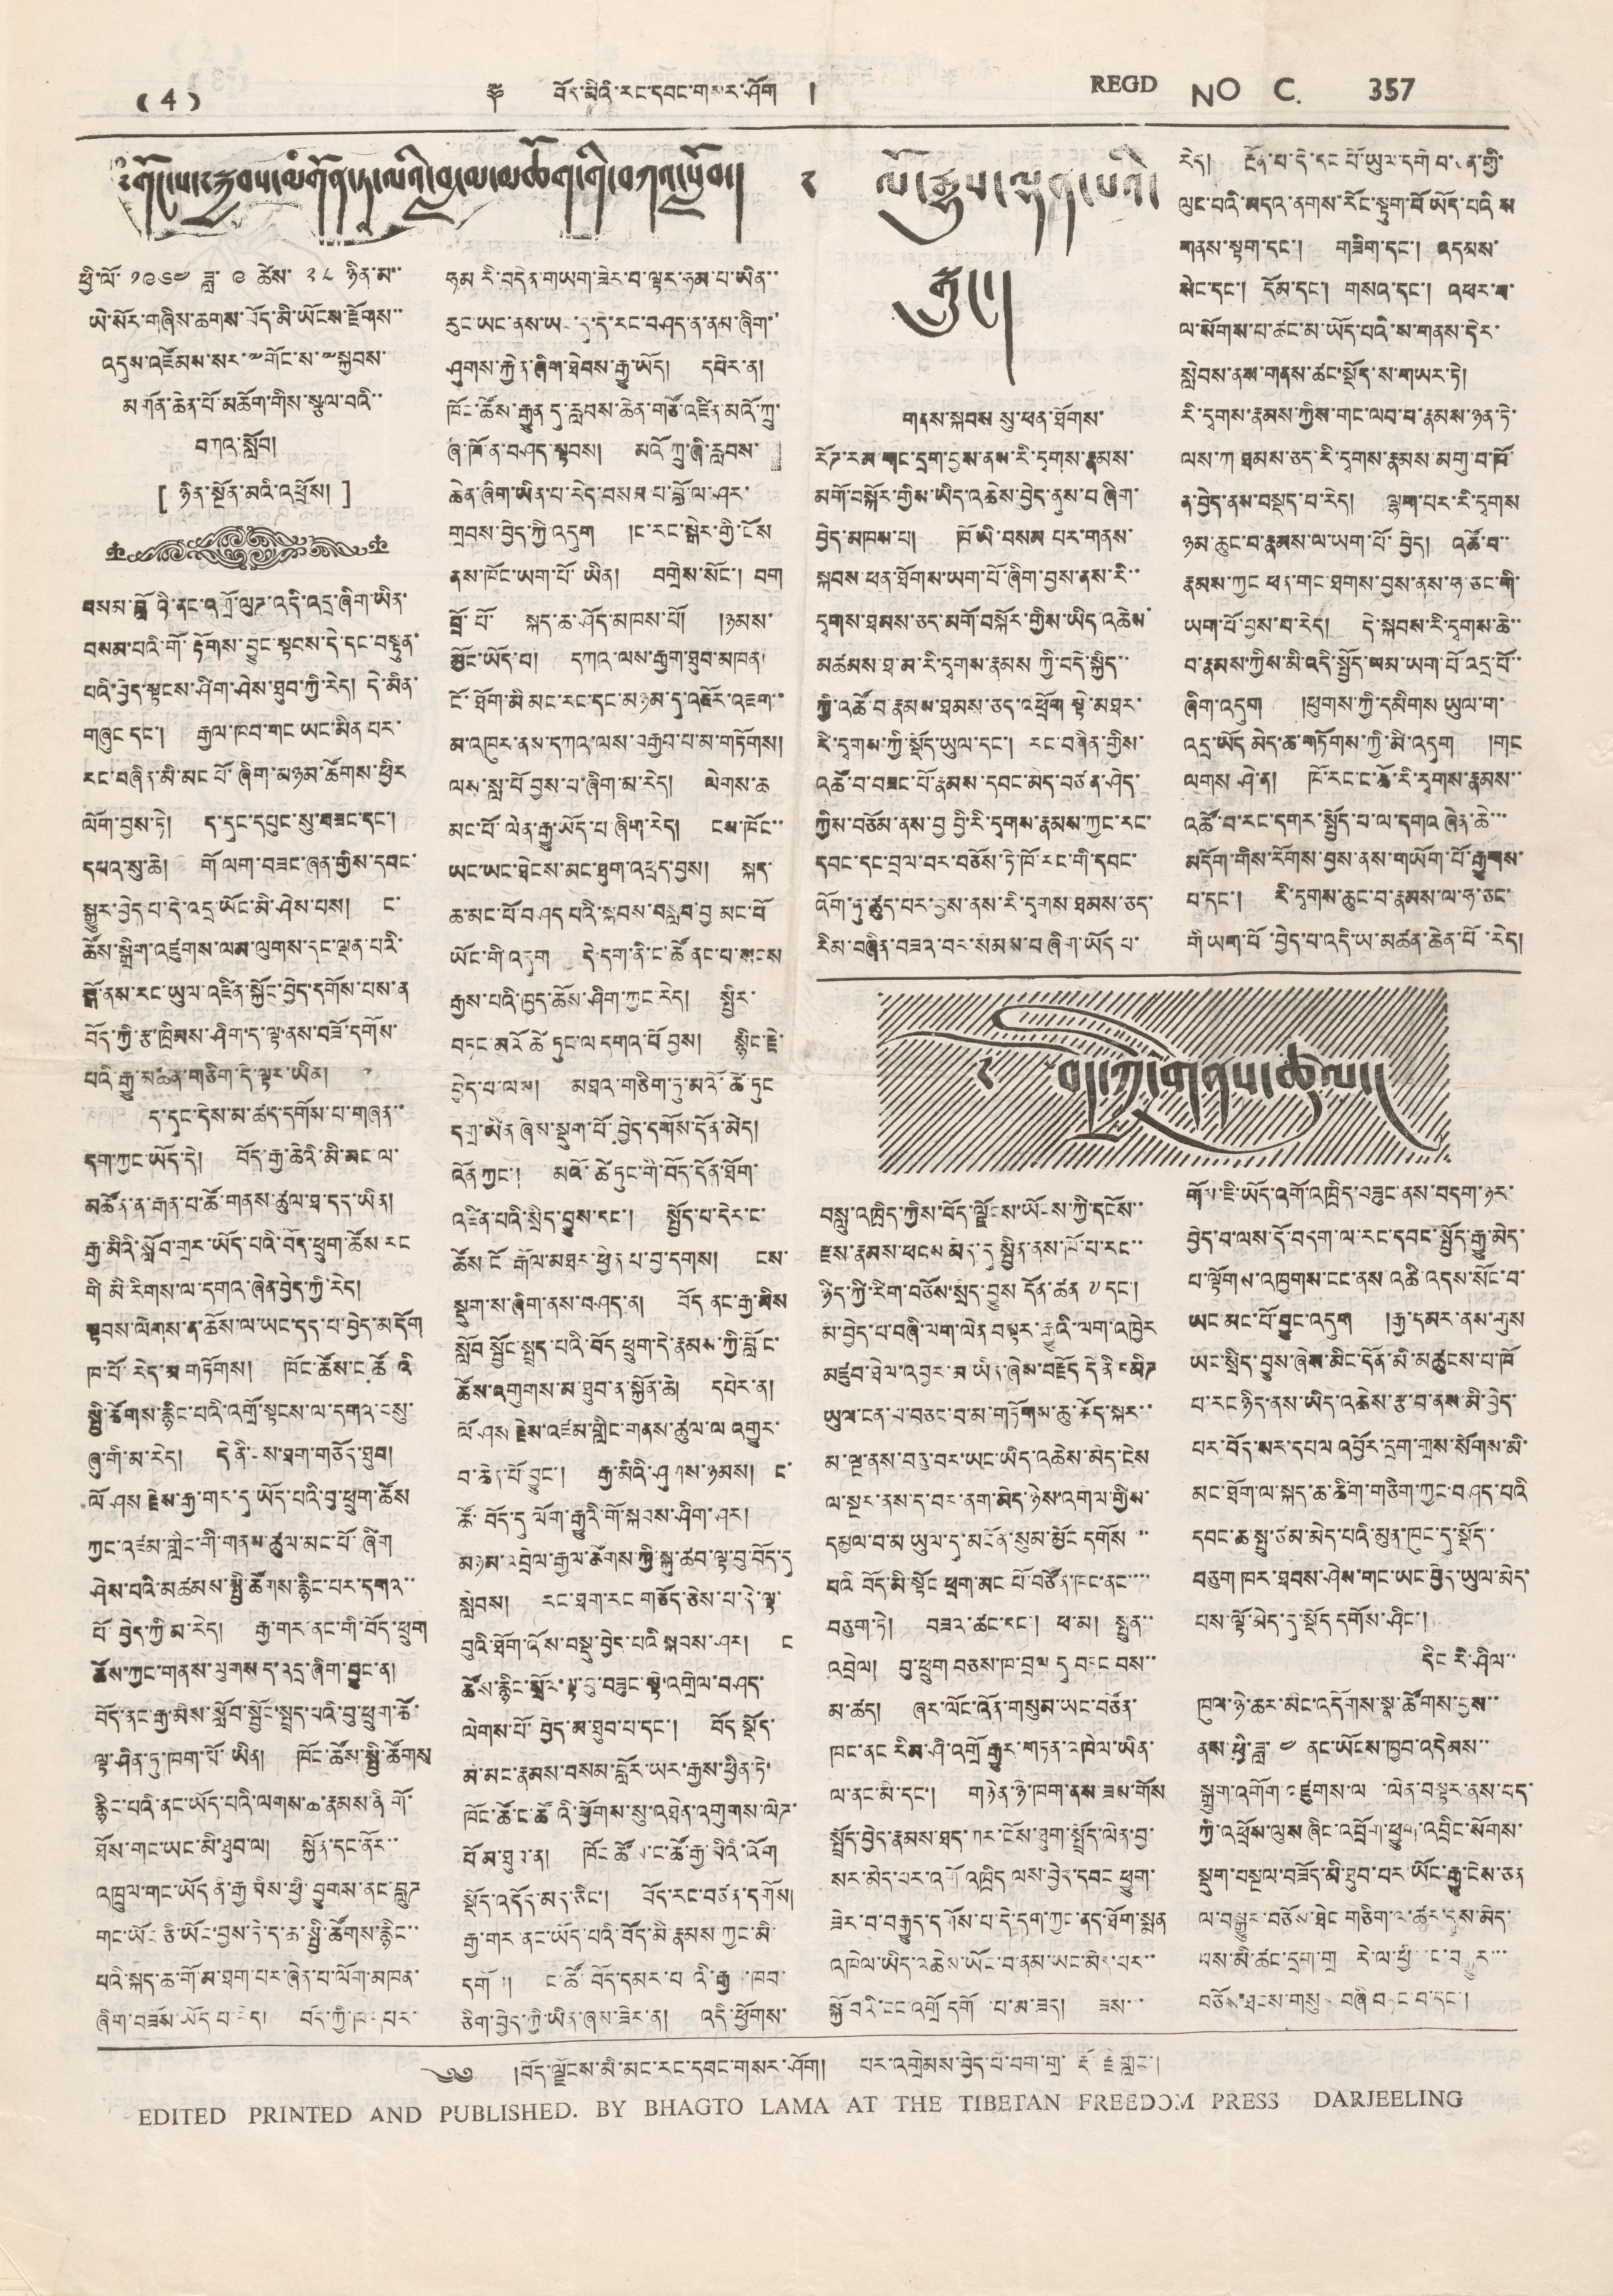(( 4 )) ༈ བོད་མི་རང་དབང་གསར་ཤོག །REGD NO C. 357
༸གོང་ས་༸སྐྱབས་མགོན་ཏཱ་ལའི་བླ་མ་མཆོག་གི་བཀའ་སློབ།
ཕྱི་ལོ་ ༡༩༦༤ ཟླ་ ༩ ཚེས་ ༢༨ ཉིན་མ་་
ཡེ་སོར་གཞིས་ཆགས་བོད་མི་ཡོངས་རྫོགས་་
འདུས་འཛོམས་སར་༸གོང་ས་༸སྐྱབས་་
མགོན་ཆེན་པོ་མཆོག་གིས་སྩལ་བའི་་
བཀའ་སློབ།
༄ ལོ་རྒྱུས་ལྡན་པའི་
སྒྲུང་།
[ ཉིན་སྔོན་མའི་འཕྲོས། ]
བསམ་བློའི་ནང་འགྲོ་ལུཌ་འདི་འདྲ་ཞིག་ཡིན་
བསམ་པའི་གོ་རྟོགས་བྱུང་སྟབས་དེ་དང་བསྟུན་
པའི་བྱེད་སྟངས་ཤིག་ཤེས་ཐུབ་ཀྱི་རེད། དེ་མིན་
གཞུང་དང་། རྒྱལ་ཁབ་གང་ཡང་མིན་པར་
རང་བཞིན་མི་མང་ཞིག་མཉམ་ཚོགས་ཕྱིར
ལོག་བྱས་ཏེ། ད་དུང་དཔུང་སུ་བཟང་དང་།
དཔའ་སུ་ཆེ། གོ ལག་བཟང་ཞན་གྱིས་དབང་
སྒྱུར་བྱེད་པ་དེ་འདྲ་ཡོང་མི་ཤེས་པས། ང་
ཆོས་སྒྲིག་འཛུགས་ལས་ལུགས་དང་ལྡན་པའི་
སྒོ་ནས་རང་ཡུལ་འཛིན་སྐྱོང་བྱེད་དགོས་པས་ན
བོད་ཀྱི་རྩ་ཁྲིམས་ཤིག་ད་ལྟ་ནས་བཟོ་དགོས་
པའི་རྒྱུ་མཚན་གཅིག་དེ་ལྟར་ཡིན།
ད་དུང་དེས་མ་ཚད་དགོས་པ་གཞན་་
དག་ཀྱང་ཡོད་དེ། བོད་རྒྱ་ཆེའི་མི་མང་ལ་
མཚོན་ན་རྒན་པ་ཆོ་གནས་ཚུལ་ཐ་དད་ཡིན།
རྒྱ་མིའི་སློབ་གྲར་ཡོད་པའི་བོད་ཕྲུག་ཚོས་རང
གི་མི་རིགས་ལ་དགའ་ཞེན་བྱེད་ཀྱི་རེད།
སྟབས་ལེགས་ན་ཆོས་ལ་ཡང་དད་པ་བྱེད་མདོག
ཁ་པོ་རེད་མ་གཏོགས། ཁོང་ཚོས་ང ཚོའི
སྤྱི་ཚོགས་རྙིང་པའི་འགྲོ་སྟངས་ལ་དགའ་བསུ་
ཞུ་གི་མ་རེད། དེ ནི་ངས་ཐག་གཅོད་ཐུབ།
ལོ ཤས རྗེས་རྒྱ་གར་དུ་ཡོད་པའི་བྱ་ཕྲུག་ཚོས
ཀྱང་འཛམ་གླིང་གི་གནས་ཚུལ་མང་པོ་ཞིག
ཤེས་པའི་མཚམས་སྤྱི་ཚོགས་རྙིང་པར་དགའ་་
པོ་བྱེད་ཀྱི་མ་རེད། རྒྱ་གར་ནང་གི་བོད་ཕྲུག
ཆོས་ཀྱང་གནས་ལུགས ད་འདྲ་ཞིག་བྱུང་ན།
བོད་ནང་རྒྱ་མིས་སློབ་སྦྱོང་སྤྲད་པའི་བུ་ཕྲུག་ཚོ་
ལྟ་ཤིན་ཏུ་ཁག་པོ་ཡིན། ཁོང་ཚོས་སྤྱི་ཚོགས
རྙིང་པའི་ནང་ཡོད་པའི་ལགས་ཆ་རྣམས་ནི གོ་
ཐོས་གང་ཡང་མི་ཐུབ་ལ། སྐྱོན་དང་ནོར་་
འཁྲུལ་གང་ཡོད་ནི་རྒྱ མིས་ཕྱི་བྱུགས་ནང་བླུཌ
གང་ཡོང་ཅི་ཡོང་བྱས་དེ་ད་ཆ་སྤྱི་ཚོགས་རྙིང་་
པའི་སྐད་ཆ་གོ་མ་ཐག་པར་ཞེན་པ་ལོག་མཁན་
ཞིག་བཟོས་ཡོད་པ་རེད། བོད་ཀྱི་ཁ དཔར་
ཧམ རི་བདེན་གཡག་ཟེར་བ་ལྟར་ཧམ་པ་ཡིན་་
རུང་ཡང་ནས་ཡང་དུ་དེ་རང་བཤད་ནམ་ཞིག་་
ཤུགས་རྐྱེན་ཞིག་ཐེབས་རྒྱུ་ཡོད། དཔེར་ན།
ཁོང་ཚོས་རྒྱུན་དུ་རླབས་ཆེན་གཙོ་འཛིན་མའོ་ཀྲུ་
ཞི་ཁོ་ན་བཤད་སྟབས། མའོ ཀྲུ་ཞི་རླབས་
ཆེན་ཞིག་ཡིན་པ་རེད་བསམ པ་བློ་ལ་ཤར་
གྲབས་བྱེད་ཀྱི་འདུག །ང་རང་སྒེར་གྱི་ངོས
ནས་ཁོང་ཡག་པོ་ཡིན། བགྲེས་སོང་། བག
བྲོ་པོ་ སྐད་ཆ་ཤོད་མཁས་པོ། །ཉམས་
མྱོང་ཡོད་པ། དཀའ་ལས་རྒྱག་ཐུབ་མཁན
ངོ་ཐོག་མི མང་རང་དང་མཉམ་དུ་འཇོར་འཇག་
མ་འཁུར་ནས་དཀར་ལས་བརྒྱབ་པ་མ་གཏོགས།
ལས་སླ་པོ བྱས་པ་ཞིག་མ་རེད། ལེགས་ཆ
མང་པོ་ལེན་རྒྱུ་ཡོད་པ་ཞིག་རེད། ངས་ཁོང་་
ཡང་ཡང་ཐེངས་མང་ཐུག་འཕྲད་བྱས། སྐད་
ཆ་མང་པོ་བཤད པའི་སྐབས་བསླབ་བྱ མང་པོ
ཡོང་གི་འདུག དེ་དག་ནི་ང་ཚོ ནང་པ་སངས
རྒྱས་པའི་ཁྱད་ཆོས་ཤིག་ཀྱང་རེད། སྤྱིར་
བཏང་མའོ ཚེ ཏུང་ལ དགའ་པོ བྱས། སྙིང་རྗེ་
བྱེད་པ་ལས། མཐའ་གཅིག་ཏུ་མའོ་ཚེ་ཏུང
དགྲ་ཡིན་ཞེས་སྡུག་པོ་བྱེད་དགོས་དོན་མེད།
འོན ཀྱང་། མའོ་ཚེ ཏུང་གི་བོད་དོན་ཐོག་
འཛིན་པའི་སྲིད་བྱུས་དང་། སྤྱོད་པ་དེར་ང་
ཚོས་ངོ་རྒོལ་མཐར་ཕྱིན པ་བྱ་དགས། ངས་
སྡུག་ས་ཞིག་ནས་བཤད་ན། བོད ནང་རྒྱ་མིས
སློབ སྦྱོང་སྤྲད་པའི་བོད ཕྲུག་དེ་རྣམས་ཀྱི་བློ་ང་
ཚོས་འགུགས་མ་ཐུབ་ན་སྐྱོན་ཆེ། དཔེར་ན།
ལོ ཤས རྗེས་འཛམ་གླིང་གནས་ཚུལ་ལ འགྱུར་
བ་ཆེན་པོ་བྱུང་། རྒྱ་མིའི་ཤུགས་ཉམས། ང་
ཚོ་བོད་དུ ལོག་རྒྱུའི་གོ་སྐབས་ཤིག་ཤར།
མཉམ་འབྲེལ་རྒྱལ་ཚོགས་ཀྱི་སྐུ་ཚབ་ལྟ་བུ་བོད་དུ
སླེབས། རང་ཐག་རང གཅོད་ཅེས་པ་དེ་ལྟ་
བུའི་ཐོག་འོས་བསྡུ་བྱེད་པའི སྐབས་ཤར། ང
ཚོས་རྙིང་སྲོལ་ལྟ་བུ་བཟུང་སྟེ་འགྲེལ་བཤད་
ལེགས་པོ་བྱེད་མ་ཐུབ་པ་དང་། བོད སྡོད་
མ་མང་རྣམས་བསམ་བློར་ཡར་རྒྱས་ཕྱིན་ཏེ་
ཁོང་ཚོ་ང་ཚོའི་ཕྱོགས་སུ་འཐེན་འགུགས་ལེཌ་
པོ མ་ཐུབ་ན། ཁོང ཚོས་ང་ཚོ་རྒྱ་མིའི་འོག
སྡོད་འདོད་མད་ཅིང་། བོད་རང་བཙན་དགོས།
རྒྱ་གར་ནང་ཡོད་པའི་བོད་མི་རྣམས་ཀྱང་མི་
དགོས། ང་ཚོ་བོད་དམར་པ འི་རྒྱལ་ཁབ་
ཅིག་བྱེད་ཀྱི་ཡིན་ཞས་ཟེར་ན། འདི་ཕྱོགས་
གནས་སྐབས་སུ་ཕན་ཐོགས་
རོཌ་རམ་གང་དྲག་བྱས་ནས་རི་དྭགས་རྣམས་
མགོ་བསྐོར་གྱིས་ཡིད་འཆེས་བྱེད་ནུས་པ ཞིག་
བྱེད་མཁན་པ། ཁོ་ཡི་བསམ པར་གནས་
སྐབས་ཕན་ཐོགས་ཡག་པོ་ཞིག་བྱས་ནས་རི་་
དྭགས་ཐམས་ཅད་མགོ་བསྐོར་གྱིས་ཡིད་འཆེས་
མཚམས་ཐ་མ་རི་དྭགས་རྣམས ཀྱི་བདེ་སྐྱིད་་
ཀྱི་འཚོ་བ་རྣམས་ཐམས་ཅད་འཕྲོག སྟེ་མཐར་
རི་དྭགས་ཀྱི་སྡོད་ཡུལ་དང་། རང་བཞིན་གྱིས་
འཚོ་བ་བཟང་པོ་རྣམས་དབང་མེད་བཙན་ཤེད་
ཀྱིས་བཅོམ་ནས་བྱ བྱི་རི་དྭགས་རྣམས་ཀྱང་རང་
དབང་དང་བྲལ་བར་བཅོས་ཏི་ཁོ་རང་གི་དབང་
འོག་ཏུ་ཚུད་པར་བྱས་ནས་རི་དྭགས་ཐམས་ཅད་
རིམ་བཞིན་བཟའ་བར་སེམས་པ ཞིག་ཡོད པ་
རེད། རྔོན་པ་དེ་དང པོ་ཡུལ་དགེ་བ་ཅན་གྱི་
ལུང་པའི་མདའ་ནགས་རོང་སྟུག་པོ་ཡོད་པའི ས
གནས་སྟག་དང་། གཟིག་དང་། འདམས་
སེང་དང་། དོམ་དང་། གསའ་དང་། འཕར་བ་
ལ་སོགས་པ་ཚང་མ་ཡོད་པའི་ས་གནས་དེར་
སླེབས་ནས་གནས་ཚུལ་སྡོད་ས་གཡར་ཏེ།
རི་དྭགས་རྣམས་ཀྱིས་གང་ལབ་པ་རྣམས་ཉན་ཏེ་
ལས་ཀ ཐམས་ཅད་རི་དྭགས་རྣམས་མགུ་བ་ཁོ་
ན་བྱེད་ནས་བསྡད་བ་རེད། ལྷག་པར་རི་དྭགས
ཉམ་ཆུང་བ་རྣམས་ལ་ཡག་པོ་བྱེད། འཚོ་བ་་
རྣམས་ཀྱང ཕན་གང་ཐགས་བྱས་ནས་ཧ་ཅང་གི་
ཡག་པོ་བྱས་པ་རེད། དེ་སྐབས་རི་དྭགས་ཆེ་་
བ་རྣམས་ཀྱིས་མི་འདི་སྤྱོད་ལམ་ཡག་པོ་འདྲ་པོ་་
ཞིག་འདུག །ཕུགས་ཀྱི་དམིགས ཡུལ་ག་
འདྲ་ཡོད་མེད་ཆ་གཏོགས་ཀྱི་མི་འདུག །གང
ལགས ཤེ་ན། ཁོ་རང་ང་ཚོ་རི་རྭགས་རྣམས་་
འཚོ་བ་རང་དགར་སྤྱོད་པ་ལ་དགའ ཞེན་ཆེ་་་
མདོག་གིས་རིགས་བྱས་ནས་གཡོག་པོ་རྒྱུགས་
པ་དང་། རི་དྭགས་ཆུང་བ་རྣམས་ལ་ཧ་ཅང་
གི ཡག་པོ་བྱེད་པ་འདི་ཡ་མཚན་ཆེན་པོ་རེད།
༄ བོད་ཀྱི་གནས་ཚུལ།
བསླུ་འཁྲིད་ཀྱིས་བོད་ལྗོངས་ཡོངས་ཀྱི་དངོས་་
རྫས་རྣམས་ཕངས མེད་དུ སྤྱིན་ནས་ཁོ་པ་རང་་
ཉིད་ཀྱི་རིག་བཅོས་སྲིད་བྱུས དོན་ཚན་ ༧ དང་།
མ་བྱེད་པ་བཞི་ལག་ལེན་བསྟར་རྒྱུའི་ལག་འཁྱེར
མཛུབ་ཐེལ་འབྱར་མ ཡིན་ཞེས་བརྗོད དེ ནི དམིཌ
ཡུལ་ངན་པ་བཅང་བ་མ་གཏོགས་ཆུ་ཚོད་སྐར་་
མ་ལྔ་ནས་བཅུ་བར་ཡང་ཡིད་འཆེས་མེད་ངེས
ལ་སྔར་ནས་ད་བར་ནག་མེད་ཉེས་འགལ་གྱིས་
དམྱལ་བ་མ ཡུལ་དུ་མངོན་སུམ་མྱོང དགོས་་
པའི བོད་མི་སྟོང་ཕྲག་མང་པོ་བཙོན་ཁང་ནང་་་་
བཅུག་ཏེ། བཟའ་ཚང་དང་། ཕ་མ། སྤུན་་་
འབྲེལ། བུ་ཕྲུག བཅས་ཁ་བྲལ དུ བཏང བས་་
མ་ཚད། ཞར་ལོང་འོན་གསུམ་ཡང་བཙོན་
ཁང་ནང རིམ་ཤི་འགྲོ་རྒྱུར་གཏན་འཁེལ་ཡིན་
ལ་ནང་མི་དང་། གཉེན་ཉེ་ཁག་ནས་ཟས་གོས
སྤྲོད་བྱེད་རྣམས་ཐད་ཀར་ངོས་ཐུག་སྤྲོད་ལེན་བྱ་
སར་མེད་པར་འགོ འཁྲིད ལས་བྱེད་དབང ཕྱུག་
ཟེར་བ་བརྒྱུད་དགོས་པ་དེ་དག་ཀྱང་ནད་ཐོག་སྨན
འཁེལ་ཡིད་འཆེས་ཡོང་བ་ནམ་ཡང་མེད་པར་་
སྐྱོ བའི་ངང་འགྲོ དགོ ་པ་མ་ཟད། ཟས་་
གོས་ཇི་ཡོད་འགོ་འཁྲིད་བཟུང་ནས་བདག་ཉར་
བྱེད་པ་ལས་དོ་བདག་ལ་རང་དབང་སྤྱོད་རྒྱུ་མེད་
པ་ལྟོགས་འཁྱགས་ངང་ནས་འཆི་འདས་སོང་བ་
ཡང་མང་པོ་བྱུང་འདུག །རྒྱ་དམར་ནས་གུས
ཡང་སྲིད་བྱུས་ཆེས་མིང་དོན་མི་མཚུངས་པ་ཁོ
པ་རང་ཉིད་ནས་ཡིད་འཆེས་རྩ་བ་ནས་མི་བྱེད་
པར་བོད་སར་དཔལ འབྱོར་དྲག་གྲས་སོགས་མི་
མང་ཐོག་ལ་སྐད་ཆ་ཚིག་གཅིག་ཀྱང་བཤད་པའི
དབང་ཆ་སྤུ་ཙམ་མེད་པའི་མུན་ཁུང་དུ་སྡོད་
བཅུག ཁར་ཐབས་ཤེས་གང་ཡང་བྱེད་ཡུལ་མེད་
པས་ལྟོ་མེད་དུ་སྡོད དགོས་ཤིང་།
དིང རི་ཤིལ་་
ཁུལ་ཉེ་ཆར་མིང་འདོགས་སྣ་ཚོགས་བྱས་་
ནས་ཕྱི་ཟླ ༤ ནང་ཡོངས་ཁྱབ་འདེབས་་
སྒྲུབ་འགོག་འཛུགས་ལག་ལེན་བསྟར་ནས་པད་
ཀྱི་འཕྲོས་ལུས ཞིང་འབྲོག་ཕྱུག་འབྲིང་སོགས་
སྡུག་བསྔལ་བཟོད་མི་ཐུབ་པར་ཡོང་རྒྱུ་ངེས་ཅན
ལ་བསྒྱུར་བཅོས་ཐེང་གཅིག་ལ་ཚུར་དུས་མེད་
པས་མི་ཚང་དྲག་གྲ རེ་ལ་ཕྱི་ ་ང་བསྒྱུར་་་
བཅོས་ཐངས་གསུམ་བཞི བཏང་བ་དང་།
༄༅ །བོད་ལྗོངས་མི་མང་རང་དབང་གསར་ཤོག ། པར་འགྲེམས་བྱེད་པོ་བག་གྲ་རྡོ་རྗེ་གླིང་།
EDITED PRINTED AND PUBLISHED BY BHAGTO LAMA AT THE TIBETAN FREEDOM PRESS DARJEELING
